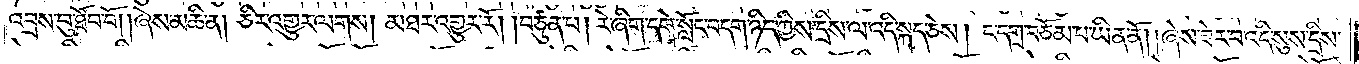འབྲས་བུ་ཐོབ་བོ། །ཞེས་མཆི་ན། ཅིར་འགྱུར་ལགས། མཐར་འགྱུར་རོ། །བཙུན་པ། རེ་ཞིག་དགེ་སློང་བདག་ཉིད་ཀྱིས་དྲིས་ལ་འདི་སྐད་ཅེས། ང་དགྲ་བཅོམ་པ་ཡིན་ནོ། །ཞེས་ཟེར་བ་འདི་སུས་དྲིས་
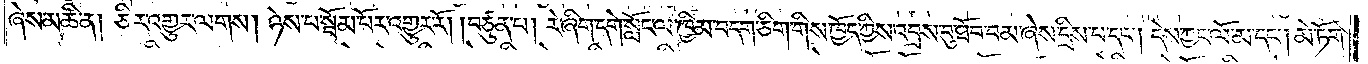ཞེས་མཆི་ན། ཅིར་འགྱུར་ལགས། ཉེས་པ་སྦོམ་པོར་འགྱུར་རོ། །བཙུན་པ། རེ་ཞིག་དགེ་སློང་ལ་ཁྱིམ་བདག་ཅིག་གིས་ཁྱོད་ཀྱིས་འབྲས་བུ་ཐོབ་བམ་ཞེས་དྲིས་པ་དང༌། དེས་ཀྱང་ལོ་མ་དང༌། མེ་ཏོག་
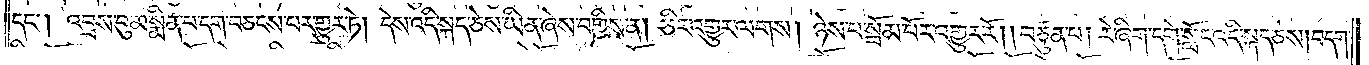དང༌། འབྲས་བུ་མ་སྨིན་པ་དག་བཅངས་པར་གྱུར་ཏེ། དེས་འདི་སྐད་ཅེས་ཡིན་ཞེས་བགྱིས་ན། ཅིར་འགྱུར་ལགས། ཉེས་པ་སྦོམ་པོར་འགྱུར་རོ། །བཙུན་པ། རེ་ཞིག་དགེ་སློང་འདི་སྐད་ཅེས། བདག་
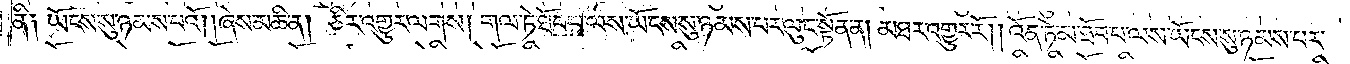ནི༑ ཡོངས་སུ་ཉམས་པའོ། །ཞེས་མཆི་ན། ཅིར་འགྱུར་ལགས། གལ་ཏེ་ཐོབ་པ་ལས་ཡོངས་སུ་ཉམས་པར་ལུང་སྟོན་ན། མཐར་འགྱུར་རོ། །འོན་ཏེ་མ་ཐོབ་པ་ལས་ཡོངས་སུ་ཉམས་པར་
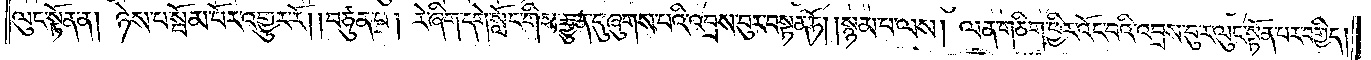ལུང་སྟོན་ན། ཉེས་པ་སྦོམ་པོར་འགྱུར་རོ། །བཙུན་པ། རེ་ཞིག་དགེ་སློང་གིས་རྒྱུན་དུ་ཞུགས་པའི་འབྲས་བུར་བསྟན་ཏོ། །སྙམ་པ་ལས། ལན་གཅིག་ཕྱིར་འོང་བའི་འབྲས་བུ་ར་ལུང་སྟོན་པར་བགྱིད།
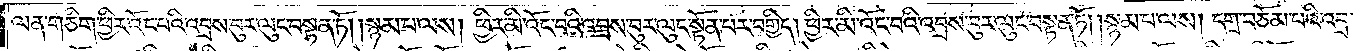ལན་གཅིག་ཕྱིར་འོང་པའི་འབྲས་བུར་ལུང་བསྟན་ཏོ། །སྙམ་པ་ལས། ཕྱིར་མི་འོང་བའི་འབྲས་བུར་ལུང་སྟོན་པར་བགྱིད། ཕྱིར་མི་འོང་བའི་འབྲས་བུར་ལུང་བསྟན་ཏོ། །སྙམ་པ་ལས། དགྲ་བཅོམ་པའི་འབྲས་
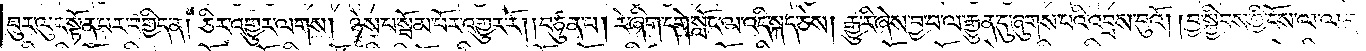བུར་ལུང་སྟོན་པར་བགྱིད་ན། ཅིར་འགྱུར་ལགས། ཉེས་པ་སྦོམ་པོར་འགྱུར་རོ། །བཙུན་པ། རེ་ཞིག་དགེ་སློང་ལ་འདི་སྐད་ཅེས། རྒྱུ་རི་ཞེས་བྱ་བ་ལ་རྒྱུན་དུ་ཞུགས་པའི་འབྲས་བུའོ། །བྱ་སྐྱིབས་ཀྱི་ངོས་ལ་ལན་
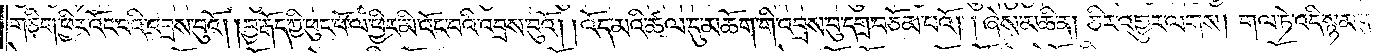གཅིག་ཕྱིར་འོང་བའི་འབྲས་བུའོ། །བྱ་རྒོད་ཀྱི་ཕུང་པོ་ལ་ཕྱིར་མི་འོང་བའི་འབྲས་བུའོ། །འོད་མའི་ཚལ་དུ་མཆོག་གི་འབྲས་བུ་དགྲ་བཅོམ་པའོ། །ཞེས་མཆི་ན། ཅིར་འགྱུར་ལགས། གལ་ཏེ་འདི་སྙམ་དུ་
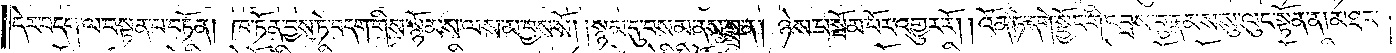དེར་བདག་ལ་བསྟན་པ་བཏོན། ཁ་ཏོན་བྱས་ཏེ་བདག་གིས་སྙོམས་ལས་མ་བྱས་སོ། །སྙམ་དུ་བསམ་ནས་སྨྲ་ན། ཉེས་པ་སྦོམ་པོར་འགྱུར་རོ། །འོན་ཏེ་དགེ་སྦྱོང་གི་འབྲས་བུ་རྣམས་སུ་ལུང་སྟོན་ན། མཐར་
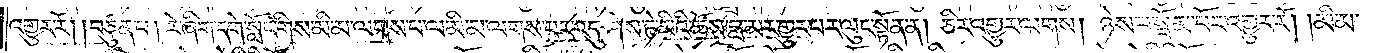འགྱུར་རོ། །བཙུན་པ། རེ་ཞིག་དགེ་སློང་གིས་མི་མ་ལགས་པ་ལ་མི་མ་ལགས་པར་འདུ་ཤེས་ཏེ་མིའི་ཆོས་བླ་མར་གྱུར་པར་ལུང་སྟོན་ན། ཅིར་འགྱུར་ལགས། ཉེས་པ་སྦོམ་པོར་འགྱུར་རོ། །མི་མ་
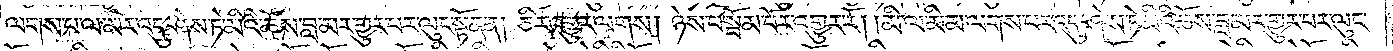ལགས་པ་ལ་མིར་འདུ་ཤེས་ཏེ་མིའི་ཆོས་བླ་མར་གྱུར་པར་ལུང་སྟོན་ན། ཅིར་འགྱུར་ལགས། ཉེས་པ་སྦོམ་པོར་འགྱུར་རོ། །མི་ལ་མི་མ་ལགས་པར་འདུ་ཤེས་ཏེ་མིའི་ཆོས་བླ་མར་གྱུར་པར་ལུང་
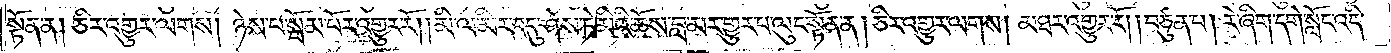སྟོན་ན། ཅིར་འགྱུར་ལགས། ཉེས་པ་སྦོམ་པོར་འགྱུར་རོ། །མི་ལ་མིར་འདུ་ཤེས་ཏེ་མིའི་ཆོས་བླ་མར་གྱུར་པ་ལུང་སྟོན་ན། ཅིར་འགྱུར་ལགས། མཐར་འགྱུར་རོ། །བཙུན་པ། རེ་ཞིག་དགེ་སློང་འདི་
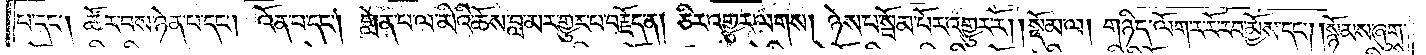པ་དང༌། ཚོར་བས་ཉེན་པ་དང༌། འོན་པ་དང༌། གླེན་པ་ལ་མིའི་ཆོས་བླ་མར་གྱུར་པ་བརྗོད་ན། ཅིར་འགྱུར་ལགས། ཉེས་པ་སྦོམ་པོར་འགྱུར་རོ། །སྡོམ་ལ། གཉིད་ལོག་ར་རོ་རབ་མྱོས་དང༌། །སྙོམས་ཞུགས་
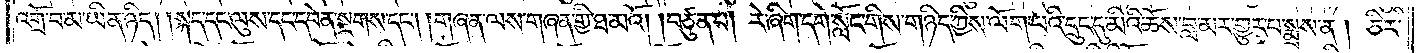འགྲོ་བ་མ་ཡིན་ཉིད། །སྐད་དང་ལུས་དང་དབེན་སྔགས་དང༌། །གཞན་ལས་གཞན་གྱི་ཐ་མའོ། །བཙུན་པ། རེ་ཞིག་དགེ་སློང་གིས་གཉིད་ཀྱིས་ལོག་པའི་དྲུང་དུ་མིའི་ཆོས་བླ་མར་གྱུར་པ་སྨྲས་ན། ཅིར་
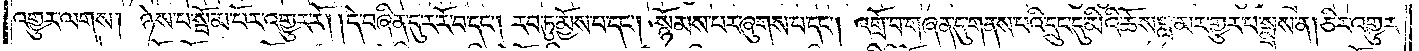འགྱུར་ལགས། ཉེས་པ་སྦོམ་པོར་འགྱུར་རོ། །དེ་བཞིན་དུ་ར་རོ་བ་དང༌། རབ་ཏུ་མྱོས་པ་དང༌། སྙོམས་པར་ཞུགས་པ་དང༌། འགྲོ་བ་གཞན་དུ་གནས་པའི་དྲུང་དུ་མིའི་ཆོས་བླ་མར་གྱུར་པ་སྨྲས་ན། ཅིར་འགྱུར་
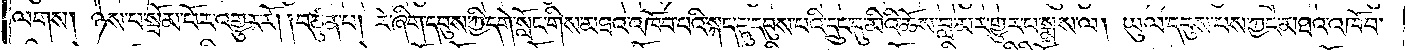ལགས། ཉེས་པ་སྦོམ་པོར་འགྱུར་རོ། །བཙུན་པ། རེ་ཞིག་དབུས་ཀྱི་དགེ་སློང་གིས་མཐའ་འཁོབ་པའི་སྐད་དུ་དབུས་པའི་དྲུང་དུ་མིའི་ཆོས་བླ་མར་གྱུར་པ་སྨྲས་ལ། ཡུལ་དབུས་པས་ཀྱང་མཐའ་འཁོབ་
